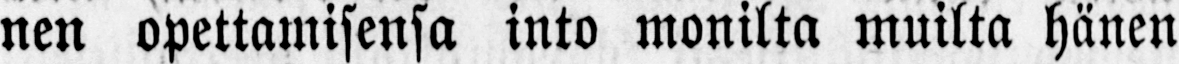nen opettamisensa into monilta muilta hänen
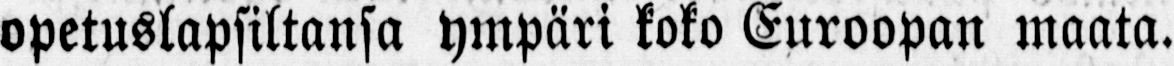opetuslapsiltansa ympäri koko Euroopan maata.
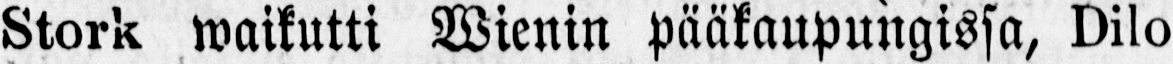Stork waikutti Wienin pääkaupungissa, Dilo
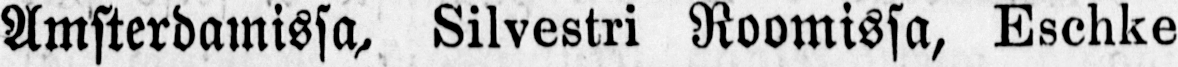Amsterdamissa, Silvestri Roomissa, Eschke
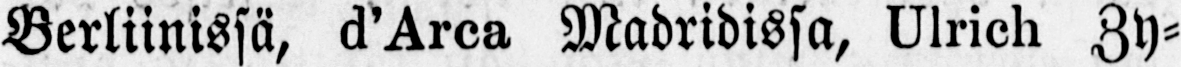Berliinissä, d'Arca Madridissa, Ulrich Zy-
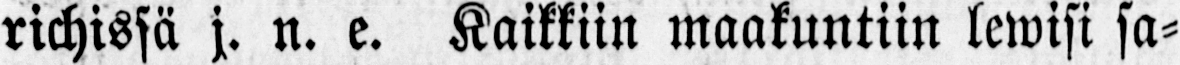richissä j. n. e. Kaikkiin maakuntiin lewisi sa-
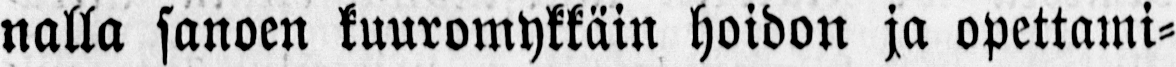nalla sanoen kuuromykkäin hoidon ja opettami-
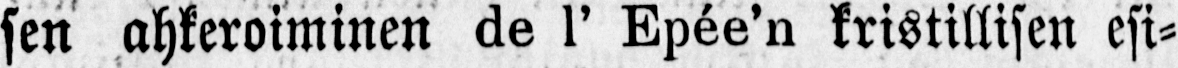sen ahkeroiminen de l' Epée'n kristillisen esi-
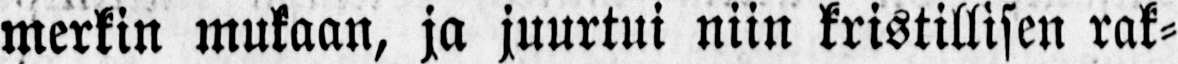merkin mukaan, ja juurtui niin kristillisen rak-
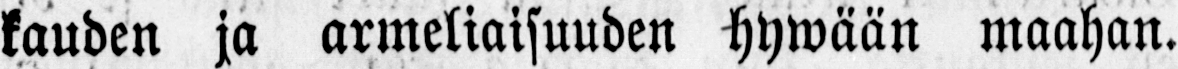kauden ja armeliaisuuden hywään maahan.
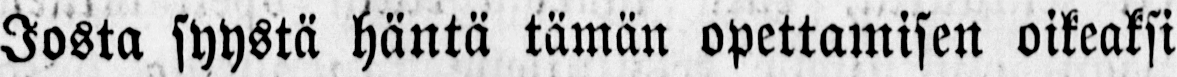Josta syystä häntä tämän opettamisen oikeaksi
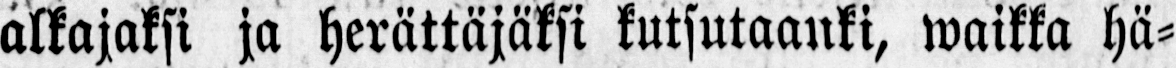alkajaksi ja herättäjäksi kutsutaanki, waikka hä-
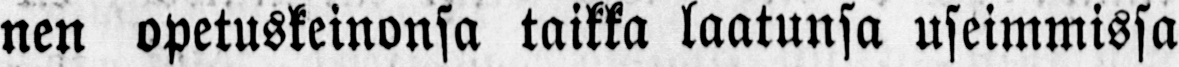nen opetuskeinonsa taikka laatunsa useimmissa
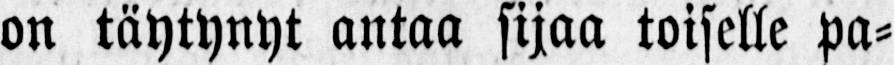on täytynyt antaa sijaa toiselle pa-
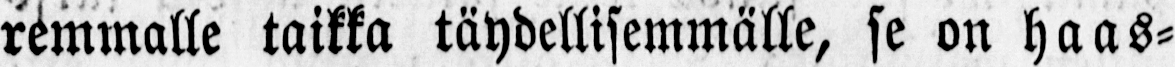remmalle taikka täydellisemmälle, se on haas-
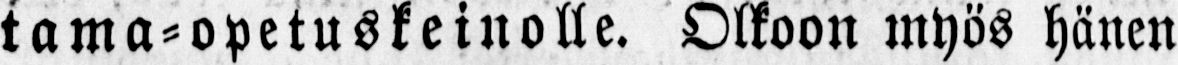tama-opetuskeinolle. Olkoon myös hänen
